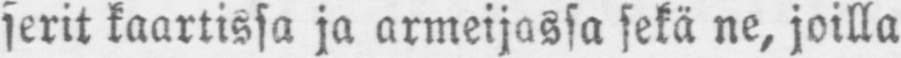serit kaartissa ja armeijassa sekä ne, joilla
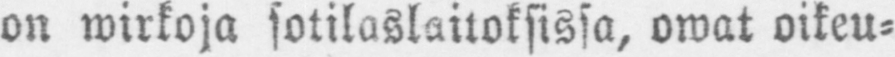on wirkoja sotilaslaitoksissa, owat oikeu-
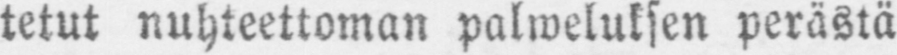tetut nuhteettoman palweluksen perästä
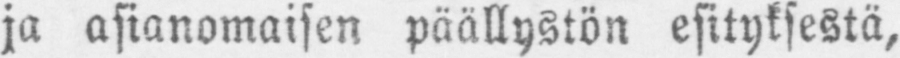ja asianomaisen päällystön esityksestä,
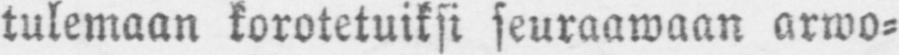tulemaan korotetuiksi seuraawaan arwo-
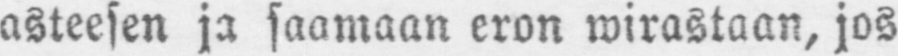asteesen ja saamaan eron wirastaan, jos
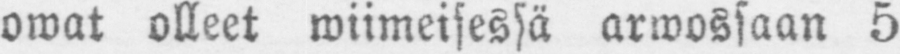owat olleet wiimeisessä arwossaan 5
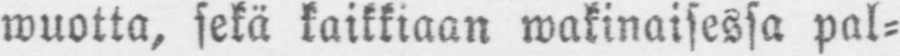wuotta, sekä kaikkiaan wakinaisessa pal-
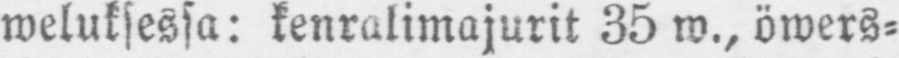weluksessa: kenralimajurit 35 w., öwers-
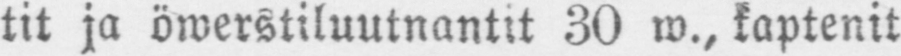tit ja öwerstiluutnantit 30 w., kaptenit
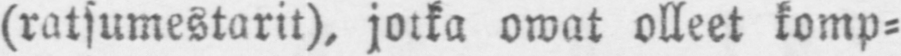(ratsumestarit), jotka owat olleet komp-
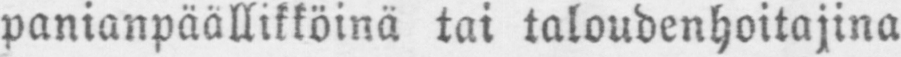panianpäällikköinä tai taloudenhoitajina
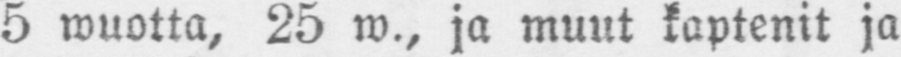5 wuotta, 25 w., ja muut kaptenit ja
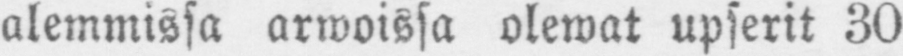alemmissa arwoissa olewat upserit 30
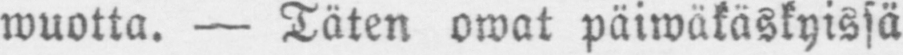wuotta. — Täten owat päiwäkäskyissä
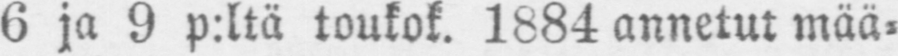6 ja 9 p:ltä toukok. 1884 annetut mää-
